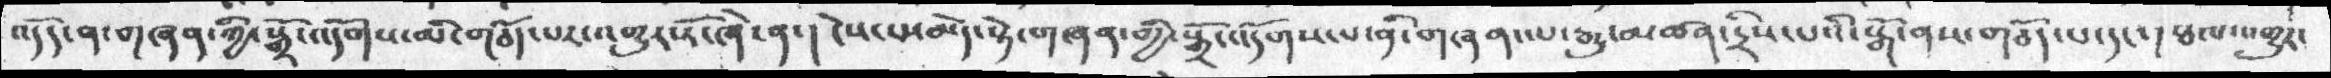འདོདན་ན་གཞན་ཀྱི་སྒྲོ་འདོགས་མི་གཅོད་པར་འགྱུར་རོ་ཞེ་ན་།  ངེས་པ་མེད་སྟེ་གཞན་གྱི་སྒྲོ་འདོགས་པ་ནི་གཞན་པ་རྒྱུ་མཚན་དྲིས་པའི་སྒོ་ནས་གཅོད་པ་དང་། ཐལ་འགྱུར་
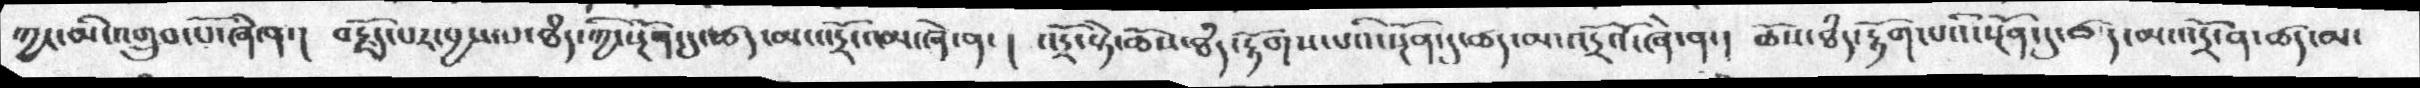ཀྱང་མི་འགྲུབ་པོ་ཞེ་ན་།  བརྗོད་པར་བྱས་པ་ཐཾད་ཀྱི་སྔོན་དུ་ཚད་མ་འདྲོ་འམ་ཞེ་ན་།  འདྲོ་སྟེ་ཆོས་ཐཾད་རྟོགས་པའི་སྔོན་དུ་ཚད་མ་འདྲོའོ་ཞེ་ན་།  ཆོས་ཐཾད་རྟོག་པའི་སྔོན་དུ་ཚད་མ་འདྲོ་ན་ཚད་མ་
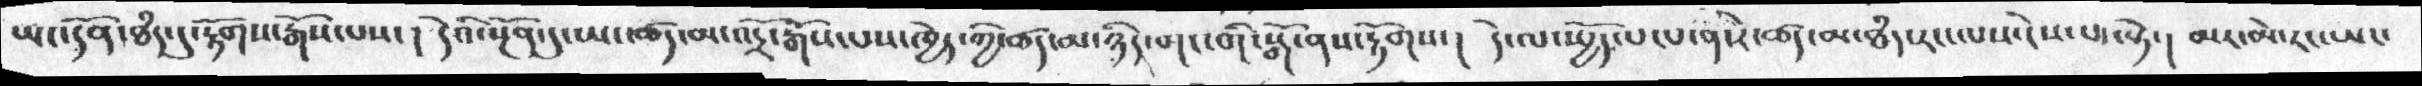ཡང་དོན་ཐཾད་དུ་རྟོགས་རྒོས་པས་།  དེའི་སྔོན་དུ་ཡང་ཚད་མ་འདྲོ་རྒོས་པས་ཁྱེད་ཀྱི་ཚད་མ་ཉིད་གང་གི་སྒོ་ནས་རྟོགས་།  དེ་ལ་སྤྱོད་པ་པ་ན་རེ་ཚད་མ་ཐཾད་རང་ལས་ངེས་པད་སྟེ་།  མར་མེ་རང་ཡང་་
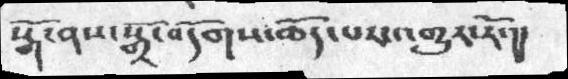སྒོ་ནས་སྒྲོ་བདོགས་ཆོད་པར་འགྱུར་རོ་།།
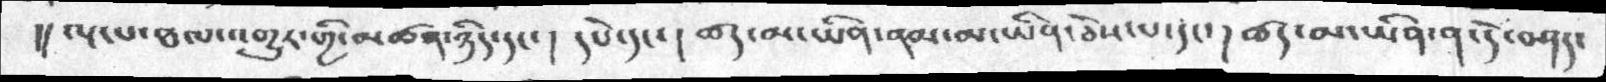།། ལྔ་པ་ཐལ་འགྱུར་གྱི་མཚན་ཉིད་དང་།  དཔེ་དང་།  ཚད་མ་ཡིན་ནམ་མ་ཡིན་ཅེས་པ་དང་།  ཚད་མ་ཡིན་ན་དེ་བཤད་
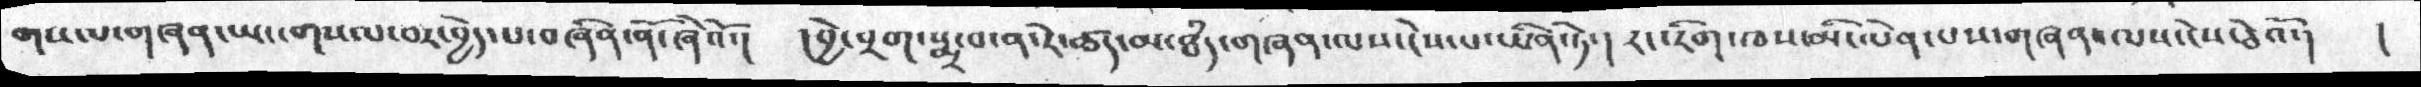གསལ་གཞན་ཡང་གསལ་བར་བྱེད་པ་བཞིན་ནོ་ཞེའོ་།  །བྱེ་བྲག་སྨྲ་བ་ན་རེ་ཚད་མ་ཐཾད་གཞན་ལས་ངེས་པ་ཡིན་ཏེ་།  རང་རིག་ཁས་མི་ལེན་པས་གཞན་ལས་ངེ་ཅེའོ་།   །
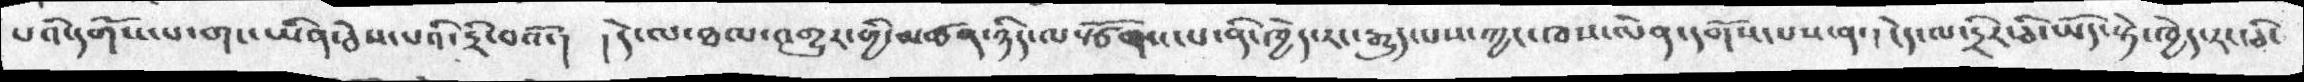པའི་དགོས་པ་གང་ཡིན་ཅེས་པའི་དྲི་བའོ་།  ། དེ་ལ་ཐལ་འགྱུར་གྱི་མཚན་ཉིད་ལསྩོགས་པ་ནི་ཁྱེད་རང་རྒྱུད་པས་ཀྱང་ཁས་ལེན་དགོས་པས་ན་།  ངེད་ལ་དྲིར་ཅི་ཡོད་སྟེ་ཁྱེད་རང་ཅི་
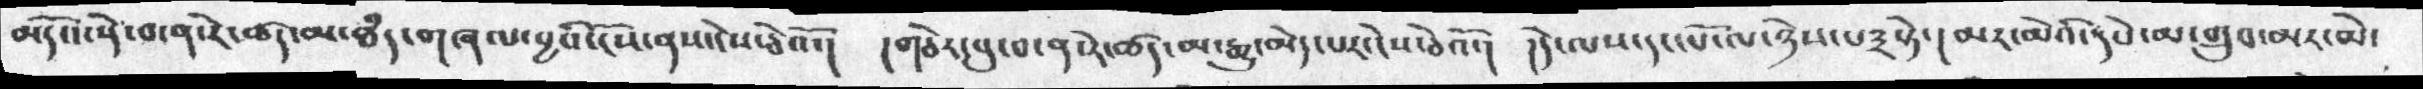མདོའ་སྡེ་བ་ན་རེ་ཚད་མ་ཐཾད་གཞལ་བྱའི་ངོས་ནས་ངེས་ཅེའོ་།  །གཅེར་བུ་པ་ན་རེ་ཚད་མ་རྒྱུ་མེད་པར་ེངས་ཅེའོ་།  །དེ་ལས་དང་པོ་ལ་ཉེས་པ༣སྟེ་།  མར་མེའི་དཔེ་མ་གྲུབ་མར་མེ་
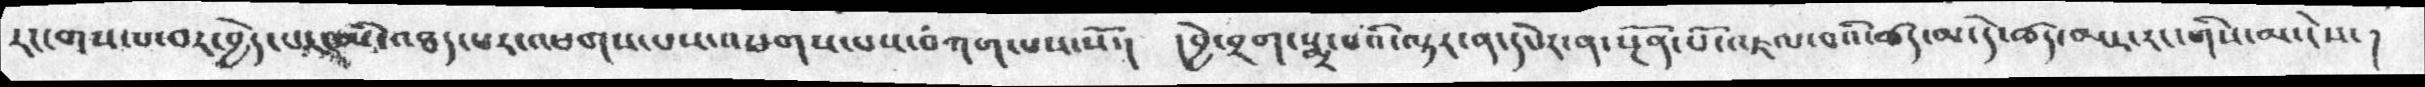རང་གསལ་བར་བྱེད་པར་མི་འཐད་པར་འཕགས་པས་འཕགས་པས་བཀག་པས་སོ་།  །བྱེ་བྲག་སྨྲ་པའི་ལྟར་ན་དཔེར་ན་སྔོན་པོ་འཇལ་བའི་ཚད་མ་དེ་ཚད་མར་རང་གིས་མ་ངེས་།
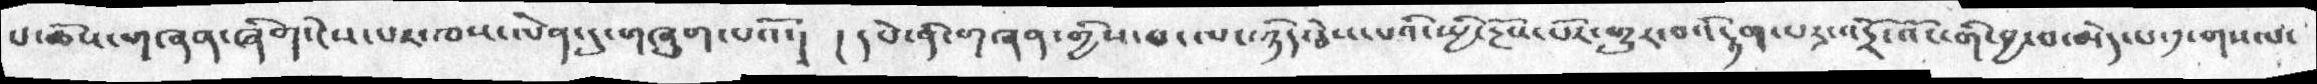པ་ཆོས་གཞན་ཞིག་ངེས་པར་ཁས་ལེན་དུ་གཞུག་པའོ་།  ། དཔེ་ནི་གཞན་གྱིས་བ་ལང་ཉིད་ཅེས་པའི་སྤྱི་རྔོས་པོར་གྱུར་བ་དོརྟག་པར་འདྲོ་འོང་གི་བྱ་བ་མེད་པ་༡་གསལ་
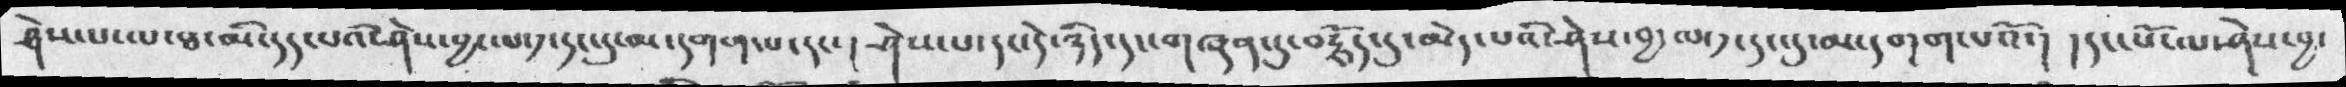ཤེས་པ་ལ་ཐ་མི་དད་པའི་ཤེས་བྱ་པ་༡་དང་དུ་མ་དགག་པ་དང་།  ཤེས་པ་དང་དེ་ཉིད་དང་གཞན་དུ་བརྗོད་དུ་མེད་པའི་ཤེས་བྱ་ལ་༡་དང་དུ་མ་དགག་པའོ་།  །དང་པོ་ལ་ཤེས་བྱ་
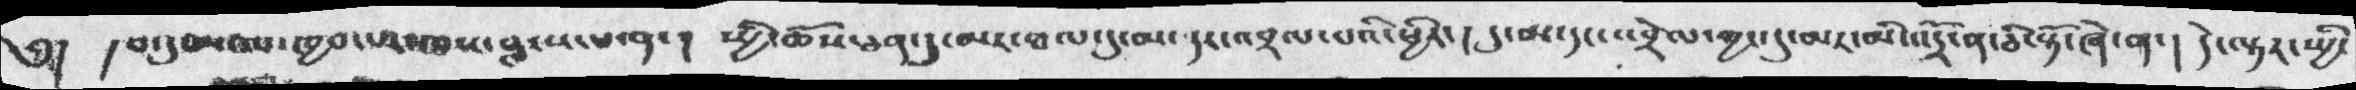༄།  ། བ་དུ་མ་ལ་ཁྱབ་པར་ཁས་བླངས་པ་ན་།   སྤྱི་ཆོས་ཅན་དུ་མར་ཐལ་དུ་དང་འབྲལ་པའི་ཕྱིར་།  དུ་མ་དང་འབྲེལ་ཀྱིང་དུ་མར་མི་འདྲོ་ན་ཅི་སྟོ་ཞེ་ན་།  དེ་ལྟར་སྤྱི་
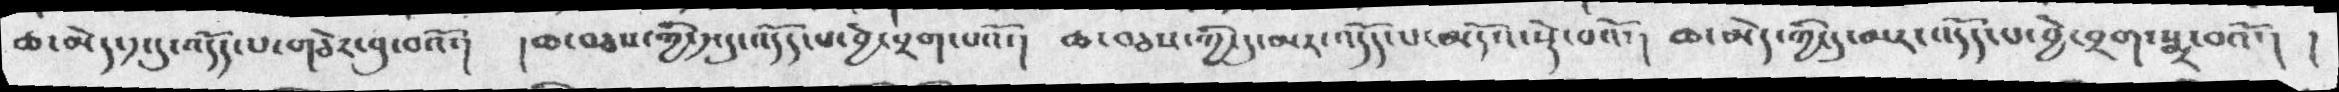ཆ་མེད་༡་དུ་འདོད་པ་གཅེར་བུ་བའོ་།  །ཆ་བཅས་ཀྱི་༡་དུ་འདོད་པ་བྱེ་བྲག་པའོ་།  ཆ་བཅས་ཀྱི་དུ་མར་འདོད་པ་མདོའ་སྡེ་བའོ་།  ཆ་མེད་ཀྱི་དུ་མར་འདོད་པ་བྱེ་བྲག་སྨྲ་བའོ་། །
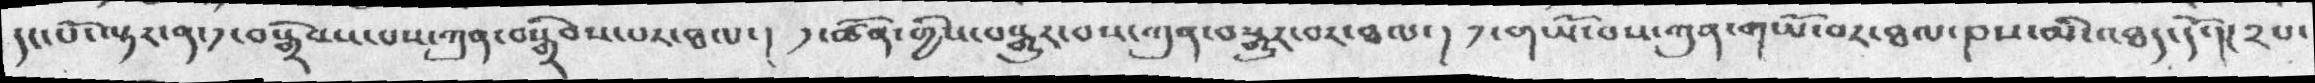དང་པ་ལྟར་ན་༡་བསྒྲེབས་པས་ཀུན་བསྒྲིབས་པར་ཐལ་། ༡་ཚོན་གྱིས་བསྒྱུར་པས་ཀུན་བསྒྱུར་བར་ཐལ་ ། ༡་གཡོ་བས་ཀུན་གཡོ་བར་ཐལ་ནས་མི་འཐད་དོ་།  ། ༢པ་
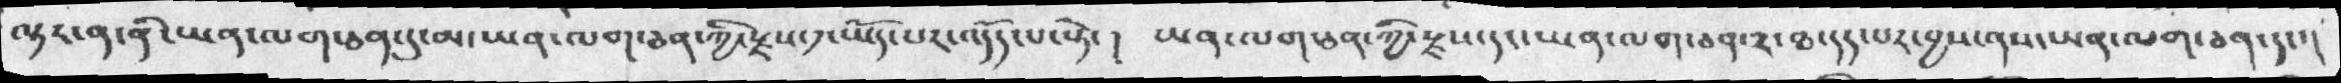ལྟར་ན་ནི་ཡན་ལག་ཅན་དུ་མ་ཡན་ལག་ཅན་ཀྱི་རྫས་༡་ཡོད་པར་འདོད་སྟེ་། ཡན་ལག་ཅན་ཀྱི་རྫས་དང་ཡན་ལག་ཅན་༢་ཐ་དད་པར་བྱས་ནས་ཡན་ལག་ཅན་དང་།
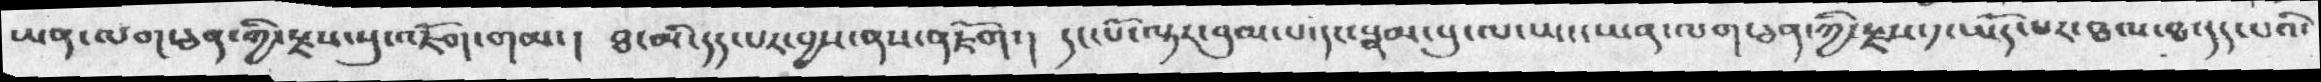ཡན་ལག་ཅན་གྱི་རྫས་སུ་འཇོག་གམ་། ཐ་མི་དད་པར་བྱས་ནས་གཇོག་། དང་པོ་ལྟར་བུམ་པ་དང་སྣམ་པུ་ལ་ཡང་ཡན་ལག་ཅན་ཀྱི་རྫས་༡་ཡོད་པར་ཐལ་ཐ་དད་པའི་
